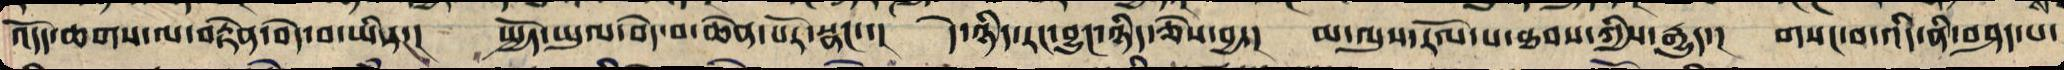འདོད་ཆགས་ལ་བརྟེན་བདེ་བ་ཡིས་། སྤྱོད་ཡུལ་བདེ་བ་ཆེན་པོར་སྣང་་། དེ་ཉིད་རང་བྱུང་ཉིད་ཅེས་བྱ་། མ་ལུས་རོལ་པ་ཐབས་ཀྱིས་རྒྱུད་། གསང་བ་འདི་ནི་བཤད་པ་
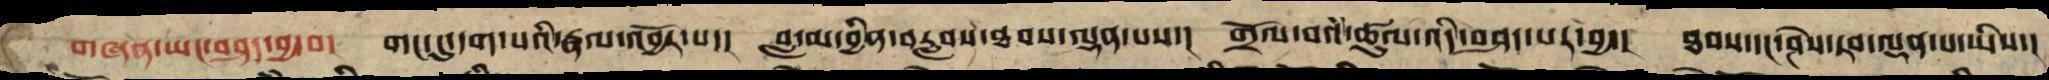གཞན་ཡང་བཤད་བྱ་བ། གང་དུ་དག་པའི་རྣལ་འབྱོར་པ་། བླ་མ་བྱིན་བརླབས་ཐབས་ལྡན་པས་། གྲོལ་བའི་ཚུལ་འདི་བཤད་པར་བྱ་། ཐབས་དང་ཤེས་རབ་ལྡན་པ་ཡིས་།
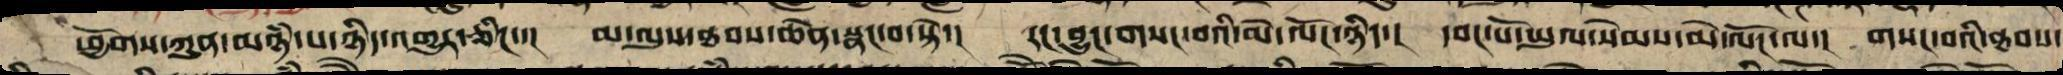ཕྱོགས་ཀུན་མཉཾ་པ་ཉིད་འགྱུར་ཅིང་་། མ་ལུས་ཐབས་ཆེན་སྣང་བ་སྟེ་། རང་བྱུང་གསང་བའི་མེ་ལོང་ཉིད་། དབང་པོ་ཡུལ་སེམས་མེ་ལོང་ལ་། གསང་བའི་ཐབས་
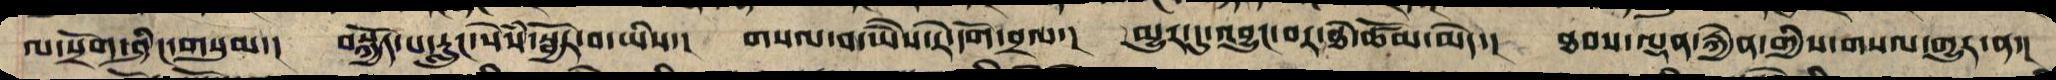ལ་སྲོག་ཤིང་གསུམ་། བསྐྱོད་པ་རླུང་སེཾས་སྦྱོར་བ་ཡིས་། གསལ་བ་ཡཻས་རེ་དོག་བྲལ་། མྱུར་དུ་འབྱུང་བར་ཐེ་ཚོམ་མེད་། ཐབས་ལྡན་རྐྱེན་གྱིས་གསལ་གྱུར་ན་།
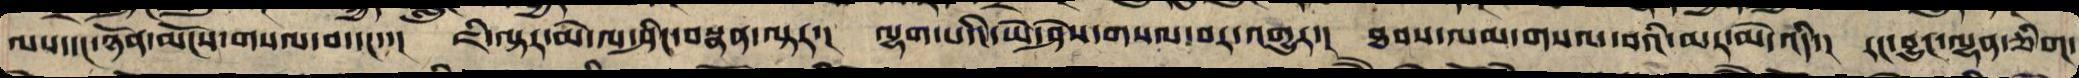ལས་དང་ཉོན་མོངས་གསལ་བ་དང་་། ཇི་ལྟར་མེ་ལ་ཤིང་བསྣན་ལྟར་། ལྷག་པའི་ཡེ་ཤེས་གསལ་བར་འགྱུར་། ཐབས་ལམ་གསལ་བའི་མར་མེ་འདི་། རང་བྱུང་ལྷན་ཅིག་
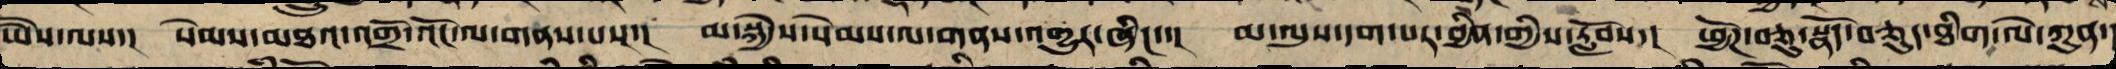ཡཻས་ལས་། སེམས་མཐའ་འགྲོ་འོང་ལ་གནས་པས་། མ་སྐྱེས་སེམས་ལ་གནས་གྱུར་ཞིང་་། མ་ལུས་དག་པར་བྱིན་གྱིས་རློབས་། ཕྱོཌ་བཅུ་སྣོད་བཅུད་ཐིག་ལེ་ཀུན་
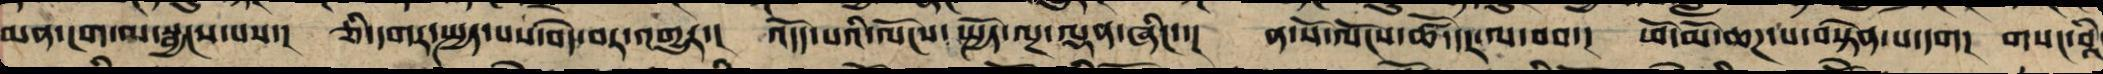མན་ངག་ལ་སྦྱངས་པས་། ཅི་དགར་སྤྱད་པས་བདེ་བར་འགྱུར་། འདོད་པའི་ལོངས་སྤྱོད་ལྔ་ལྡན་ཞིང་་། ན་སོ་ལོངས་ཚོ་དར་ལ་བབ་། ཕོ་མོ་ཆཌ་པ་བསྟེན་པ་དག་། གསང་བའི
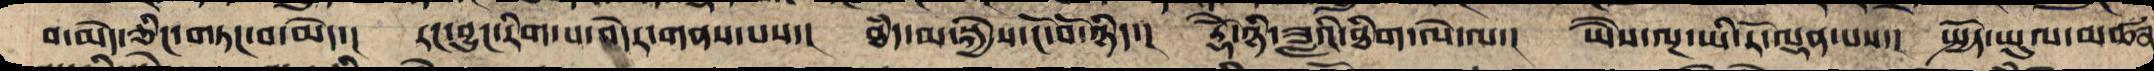བ་མེད་ཅིང་གཏང་བ་མེད་། རང་བྱུང་རིག་པ་བདེར་གནས་པས་། ཐཾད་མ་སྐྱེས་ངོ་བོ་ཉིད་། རྡོེ་ཉི་ཟླའི་ཐིག་ལེ་ལ་། ཡཻས་ལྔ་ཡི་རོ་ལྡན་པས་། སྤྱོད་ཡུལ་མཚན
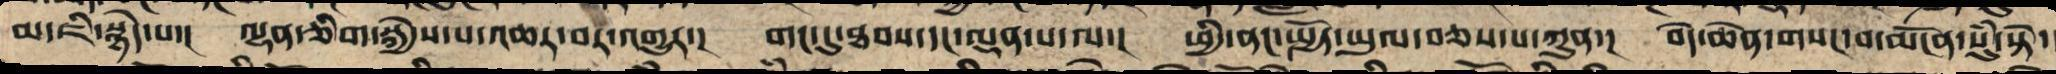མ་ཇི་སྙེད་པ་། ལྷན་ཅིག་སྐྱེས་པ་འཆར་བར་འགྱུར་། གང་དུ་ཐབས་དང་ལྡན་པ་ལ་། ཕྱི་ནང་སྤྱོད་ཡུལ་བཅས་པ་ཀུན་། བདེ་ཆེན་གསང་བ་མངོན་སུཾ་སྟེ་
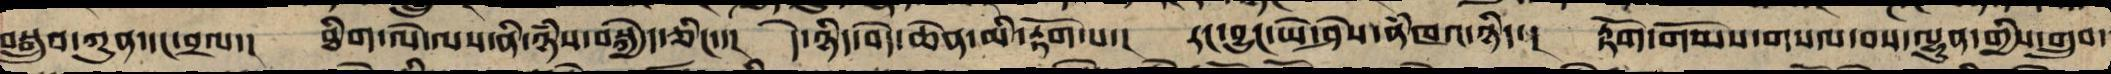བསྒྲུབ་ཀུན་དང་བྲལ་། ཐིག་ལེ་ལས་ནི་ཉཾས་བསྐྱེད་ཅིང་་། དེ་ཉིད་བདེ་ཆེན་མི་རྟོག་པ་། རང་བྱུང་ཡེ་ཤེས་ནཾཁའ་ཉིད་། རྟོགས་གོམས་གསལ་བས་ལྷུན་གྱིས་གྲུབ་
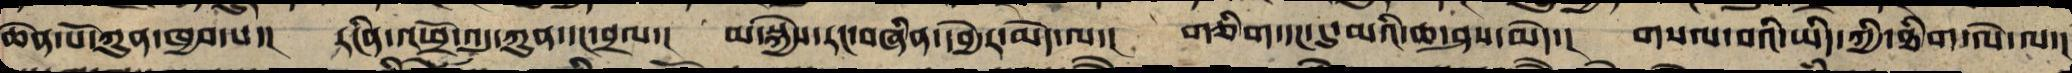ཆེན་པོ་ཀུན་ཁྱབ་པས་། རངིན་འཕྲོ་འདུ་ཀུན་དང་བྲལ་། མ་སྐྱེས་རང་བཞིན་དབྱེར་མེད་ལ་། གཅིག་དང་དུ་མའི་ཆ་ཤས་མེད་། གསལ་བའི་ཡིད་ཀྱི་ཐིག་ལེ་ལ་།
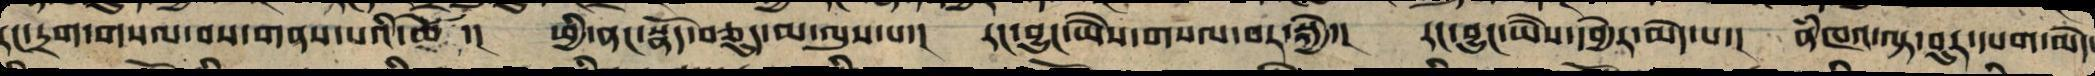རང་དྲག་གསལ་བས་གནས་པའི་ཚེ་། ཕྱི་ནང་སྣོད་བཅུད་མ་ལུས་པ་། རང་བྱུང་ཡཻས་གསལ་བར་སྐྱེ་། རང་བྱུང་ཡཻས་དབྱེར་མེད་པ་། ནཾཁའ་ལྟ་བུར་དཔག་མེད་
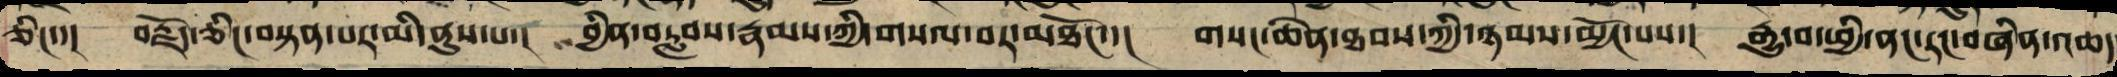ཅིང་་། བརྗོད་ཅིང་བསྟན་པར་མི་ནུས་པ་། བྱིན་བརླབས་རྣམས་ཀྱིས་གསལ་བར་མཐོང་་། གསང་ཆེན་ཐབས་ཀྱི་ཉམས་མྱོང་པས་། རྒྱུ་བ་ཕྱི་ནང་རང་བཞིན་འཆད
